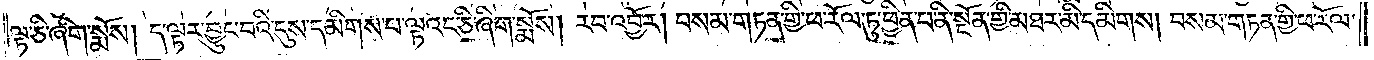ལྟ་ཅི་ཞིག་སྨོས། ད་ལྟར་བྱུང་བའི་དུས་དམིགས་པ་ལྟའང་ཅི་ཞིག་སྨོས། རབ་འབྱོར། བསམ་གཏན་གྱི་ཕ་རོལ་ཏུ་ཕྱིན་པ་ནི་སྔོན་གྱི་མཐར་མི་དམིགས། བསམ་གཏན་གྱི་ཕ་རོལ་
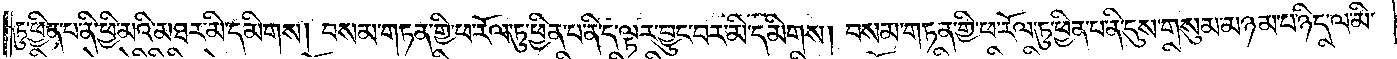ཏུ་ཕྱིན་པ་ནི་ཕྱི་མའི་མཐར་མི་དམིགས། བསམ་གཏན་གྱི་ཕ་རོལ་ཏུ་ཕྱིན་པ་ནི་ད་ལྟར་བྱུང་བར་མི་དམིགས། བསམ་གཏན་གྱི་ཕ་རོལ་ཏུ་ཕྱིན་པ་ནི་དུས་གསུམ་མཉམ་པ་ཉིད་ལ་མི་
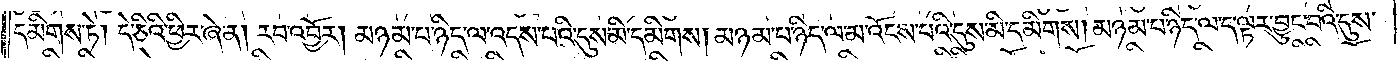དམིགས་ཏེ། དེ་ཅིའི་ཕྱིར་ཞེ་ན། རབ་འབྱོར། མཉམ་པ་ཉིད་ལ་འདས་པའི་དུས་མི་དམིགས། མཉམ་པ་ཉིད་ལ་མ་འོངས་པའི་དུས་མི་དམིགས། མཉམ་པ་ཉིད་ལ་ད་ལྟར་བྱུང་བའི་དུས་
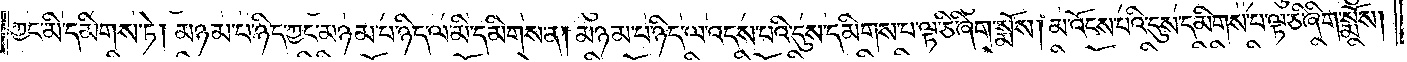ཀྱང་མི་དམིགས་ཏེ། མཉམ་པ་ཉིད་ཀྱང་མཉམ་པ་ཉིད་ལ་མི་དམིགས་ན། མཉམ་པ་ཉིད་ལ་འདས་པའི་དུས་དམིགས་པ་ལྟ་ཅི་ཞིག་སྨོས། མ་འོངས་པའི་དུས་དམིགས་པ་ལྟ་ཅི་ཞིག་སྨོས།
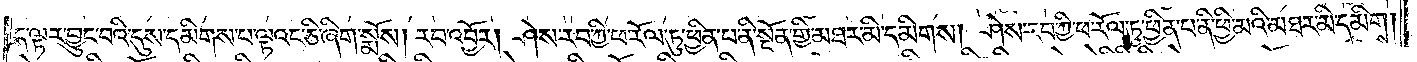ད་ལྟར་བྱུང་བའི་དུས་དམིགས་པ་ལྟའང་ཅི་ཞིག་སྨོས། རབ་འབྱོར། ཤེས་རབ་ཀྱི་ཕ་རོལ་ཏུ་ཕྱིན་པ་ནི་སྔོན་གྱི་མཐར་མི་དམིགས། ཤེས་རབ་ཀྱི་ཕ་རོལ་ཏུ་ཕྱིན་པ་ནི་ཕྱི་མའི་མཐར་མི་དམིགས།
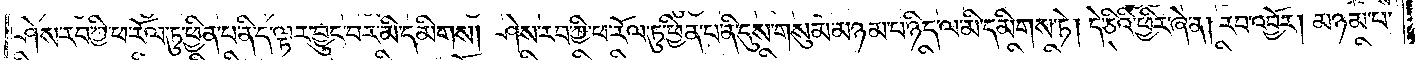ཤེས་རབ་ཀྱི་ཕ་རོལ་ཏུ་ཕྱིན་པ་ནི་ད་ལྟར་བྱུང་བར་མི་དམིགས། ཤེས་རབ་ཀྱི་ཕ་རོལ་ཏུ་ཕྱིན་པ་ནི་དུས་གསུམ་མཉམ་པ་ཉིད་ལ་མི་དམིགས་ཏེ། དེ་ཅིའི་ཕྱིར་ཞེ་ན། རབ་འབྱོར། མཉམ་པ་
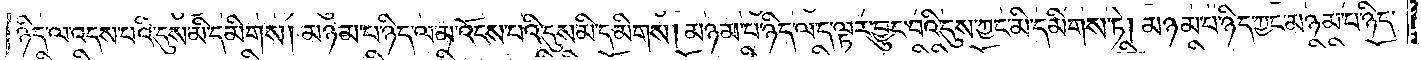ཉིད་ལ་འདས་པའི་དུས་མི་དམིགས། མཉམ་པ་ཉིད་ལ་མ་འོངས་པའི་དུས་མི་དམིགས། མཉམ་པ་ཉིད་ལ་ད་ལྟར་བྱུང་བའི་དུས་ཀྱང་མི་དམིགས་ཏེ། མཉམ་པ་ཉིད་ཀྱང་མཉམ་པ་ཉིད་
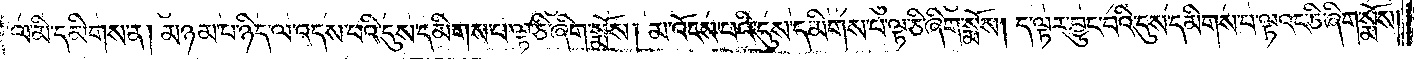ལ་མི་དམིགས་ན། མཉམ་པ་ཉིད་ལ་འདས་པའི་དུས་དམིགས་པ་ལྟ་ཅི་ཞིག་སྨོས། མ་འོངས་པའི་དུས་དམིགས་པ་ལྟ་ཅི་ཞིག་སྨོས། ད་ལྟར་བྱུང་བའི་དུས་དམིགས་པ་ལྟའང་ཅི་ཞིག་སྨོས།
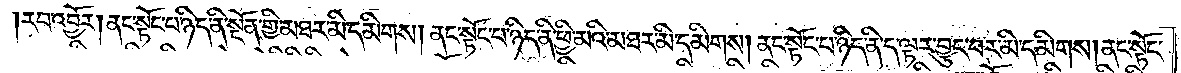རབ་འབྱོར། ནང་སྟོང་པ་ཉིད་ནི་སྔོན་གྱི་མཐར་མི་དམིགས། ནང་སྟོང་པ་ཉིད་ནི་ཕྱི་མའི་མཐར་མི་དམིགས། ནང་སྟོང་པ་ཉིད་ནི་ད་ལྟར་བྱུང་བར་མི་དམིགས། ནང་སྟོང་
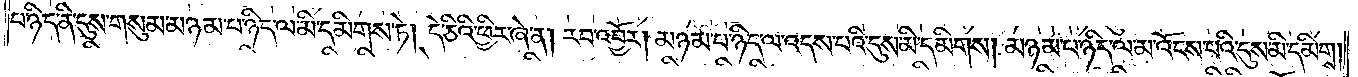པ་ཉིད་ནི་དུས་གསུམ་མཉམ་པ་ཉིད་ལ་མི་དམིགས་ཏེ། དེ་ཅིའི་ཕྱིར་ཞེ་ན། རབ་འབྱོར། མཉམ་པ་ཉིད་ལ་འདས་པའི་དུས་མི་དམིགས། མཉམ་པ་ཉིད་ལ་མ་འོངས་བའི་དུས་མི་དམིགས།
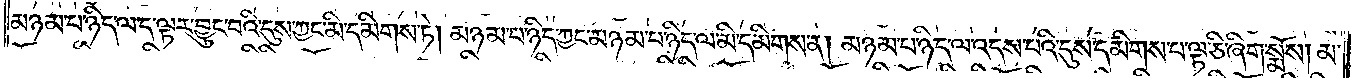མཉམ་པ་ཉིད་ལ་ད་ལྟར་བྱུང་བའི་དུས་ཀྱང་མི་དམིགས་ཏེ། མཉམ་པ་ཉིད་ཀྱང་མཉམ་པ་ཉིད་ལ་མི་དམིགས་ན། མཉམ་པ་ཉིད་ལ་འདས་པའི་དུས་དམིགས་པ་ལྟ་ཅི་ཞིག་སྨོས། མ་
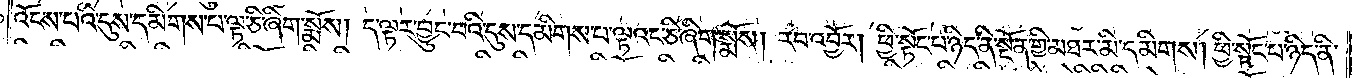འོངས་པའི་དུས་དམིགས་པ་ལྟ་ཅི་ཞིག་སྨོས། ད་ལྟར་བྱུང་བའི་དུས་དམིགས་པ་ལྟའང་ཅི་ཞིག་སྨོས། རབ་འབྱོར། ཕྱི་སྟོང་པ་ཉིད་ནི་སྔོན་གྱི་མཐར་མི་དམིགས། ཕྱི་སྟོང་པ་ཉིད་ནི་
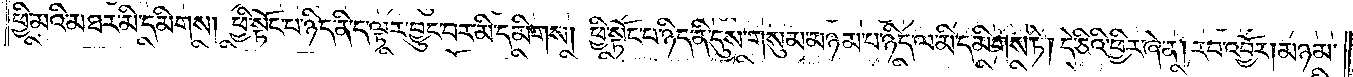ཕྱི་མའི་མཐར་མི་དམིགས། ཕྱི་སྟོང་པ་ཉིད་ནི་ད་ལྟར་བྱུང་བར་མི་དམིགས། ཕྱི་སྟོང་པ་ཉིད་ནི་དུས་གསུམ་མཉམ་པ་ཉིད་ལ་མི་དམིགས་ཏེ། དེ་ཅིའི་ཕྱིར་ཞེ་ན། རབ་འབྱོར། མཉམ་
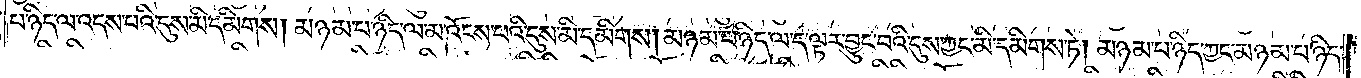པ་ཉིད་ལ་འདས་པའི་དུས་མི་དམིགས། མཉམ་པ་ཉིད་ལ་མ་འོངས་པའི་དུས་མི་དམིགས། མཉམ་པ་ཉིད་ལ་ད་ལྟར་བྱུང་བའི་དུས་ཀྱང་མི་དམིགས་ཏེ། མཉམ་པ་ཉིད་ཀྱང་མཉམ་པ་ཉིད་
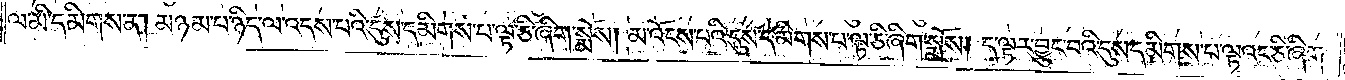ལ་མི་དམིགས་ན། མཉམ་པ་ཉིད་ལ་འདས་པའི་དུས་དམིགས་པ་ལྟ་ཅི་ཞིག་སྨོས། མ་འོངས་པའི་དུས་དམིགས་པ་ལྟ་ཅི་ཞིག་སྨོས། ད་ལྟར་བྱུང་བའི་དུས་དམིགས་པ་ལྟའང་ཅི་ཞིག་
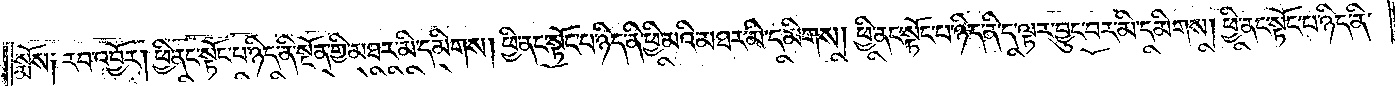སྨོས། རབ་འབྱོར། ཕྱི་ནང་སྟོང་པ་ཉིད་ནི་སྔོན་གྱི་མཐར་མི་དམིགས། ཕྱི་ནང་སྟོང་པ་ཉིད་ནི་ཕྱི་མའི་མཐར་མི་དམིགས། ཕྱི་ནང་སྟོང་པ་ཉིད་ནི་ད་ལྟར་བྱུང་བར་མི་དམིགས། ཕྱི་ནང་སྟོང་པ་ཉིད་ནི་
